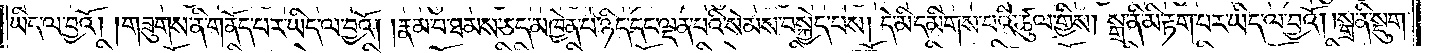ཡིད་ལ་བྱའོ། །གཟུགས་ནི་གནོད་པར་ཡིད་ལ་བྱའོ། །རྣམ་པ་ཐམས་ཅད་མཁྱེན་པ་ཉིད་དང་ལྡན་པའི་སེམས་བསྐྱེད་པས། དེ་མི་དམིགས་པའི་ཚུལ་གྱིས། སྒྲ་ནི་མི་རྟག་པར་ཡིད་ལ་བྱའོ། །སྒྲ་ནི་སྡུག་
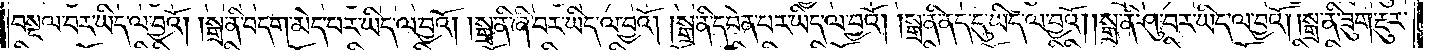བསྔལ་བར་ཡིད་ལ་བྱའོ། །སྒྲ་ནི་བདག་མེད་པར་ཡིད་ལ་བྱའོ། །སྒྲ་ནི་ཞི་བར་ཡིད་ལ་བྱའོ། །སྒྲ་ནི་དབེན་པར་ཡིད་ལ་བྱའོ། །སྒྲ་ནི་ནད་དུ་ཡིད་ལ་བྱའོ། །སྒྲ་ནི་ཤུ་བར་ཡིད་ལ་བྱའོ། །སྒྲ་ནི་ཟུག་རྔུར་
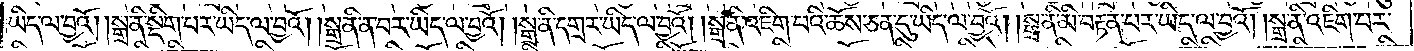ཡིད་ལ་བྱའོ། །སྒྲ་ནི་སྡིག་པར་ཡིད་ལ་བྱའོ། །སྒྲ་ནི་ན་བར་ཡིད་ལ་བྱའོ། །སྒྲ་ནི་དགྲར་ཡིད་ལ་བྱའོ། །སྒྲ་ནི་འཇིག་པའི་ཆོས་ཅན་དུ་ཡིད་ལ་བྱའོ། །སྒྲ་ནི་མི་བརྟན་པར་ཡིད་ལ་བྱའོ། །སྒྲ་ནི་འཇིག་པར་
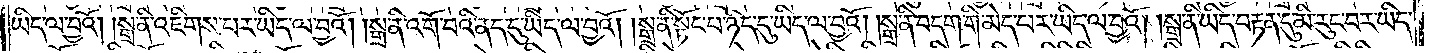ཡིད་ལ་བྱའོ། །སྒྲ་ནི་འཇིགས་པར་ཡིད་ལ་བྱའོ། །སྒྲ་ནི་འགོ་བའི་ནད་དུ་ཡིད་ལ་བྱའོ། །སྒྲ་ནི་སྟོང་པ་ཉིད་དུ་ཡིད་ལ་བྱའོ། །སྒྲ་ནི་བདག་གི་མེད་པར་ཡིད་ལ་བྱའོ། །སྒྲ་ནི་ཡིད་བརྟན་དུ་མི་རུང་བར་ཡིད་
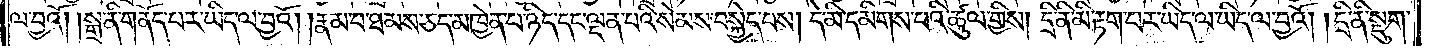ལ་བྱའོ། །སྒྲ་ནི་གནོད་པར་ཡིད་ལ་བྱའོ། །རྣམ་པ་ཐམས་ཅད་མཁྱེན་པ་ཉིད་དང་ལྡན་པའི་སེམས་བསྐྱེད་པས། དེ་མི་དམིགས་པའི་ཚུལ་གྱིས། དྲི་ནི་མི་རྟག་པར་ཡིད་ལ་བྱའོ། །དྲི་ནི་སྡུག་
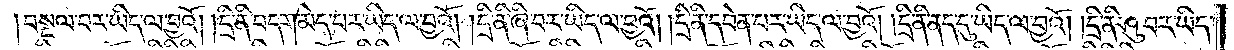བསྔལ་བར་ཡིད་ལ་བྱའོ། །དྲི་ནི་བདག་མེད་པར་ཡིད་ལ་བྱའོ། །དྲི་ནི་ཞི་བར་ཡིད་ལ་བྱའོ། །དྲི་ནི་དབེན་པར་ཡིད་ལ་བྱའོ། །དྲི་ནི་ནད་དུ་ཡིད་ལ་བྱའོ། །དྲི་ནི་ཤུ་བར་ཡིད་
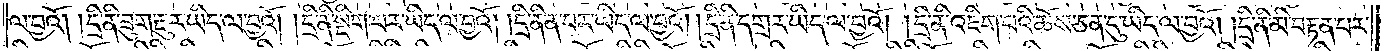ལ་བྱའོ། །དྲི་ནི་ཟུག་རྔུར་ཡིད་ལ་བྱའོ། །དྲི་ནི་སྡིག་པར་ཡིད་ལ་བྱའོ། །དྲི་ནི་ན་བར་ཡིད་ལ་བྱའོ། །དྲི་ནི་དགྲར་ཡིད་ལ་བྱའོ། །དྲི་ནི་འཇིག་པའི་ཆོས་ཅན་དུ་ཡིད་ལ་བྱའོ། །དྲི་ནི་མི་བརྟན་པར་
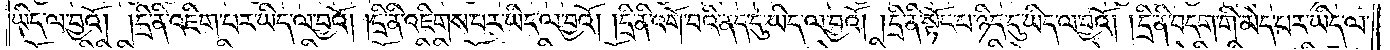ཡིད་ལ་བྱའོ། །དྲི་ནི་འཇིག་པར་ཡིད་ལ་བྱའོ། །དྲི་ནི་འཇིགས་པར་ཡིད་ལ་བྱའོ། །དྲི་ནི་འགོ་བའི་ནད་དུ་ཡིད་ལ་བྱའོ། །དྲི་ནི་སྟོང་པ་ཉིད་དུ་ཡིད་ལ་བྱའོ། །དྲི་ནི་བདག་གི་མེད་པར་ཡིད་ལ་
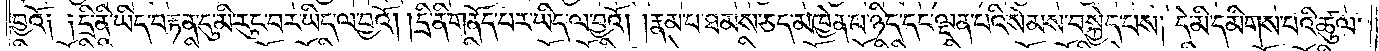བྱའོ༏ ༏དྲི་ནི་ཡིད་བརྟན་དུ་མི་རུང་བར་ཡིད་ལ་བྱའོ། །དྲི་ནི་གནོད་པར་ཡིད་ལ་བྱའོ། །རྣམ་པ་ཐམས་ཅད་མཁྱེན་པ་ཉིད་དང་ལྡན་པའི་སེམས་བསྐྱེད་པས། དེ་མི་དམིགས་པའི་ཚུལ་
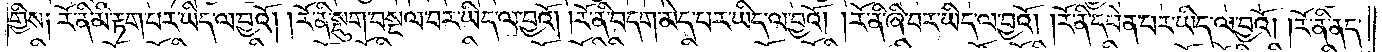གྱིས༏ རོ་ནི་མི་རྟག་པར་ཡིད་ལ་བྱའོ། །རོ་ནི་སྡུག་བསྔལ་བར་ཡིད་ལ་བྱའོ། །རོ་ནི་བདག་མེད་པར་ཡིད་ལ་བྱའོ། །རོ་ནི་ཞི་བར་ཡིད་ལ་བྱའོ། །རོ་ནི་དབེན་པར་ཡིད་ལ་བྱའོ། །རོ་ནི་ནད་
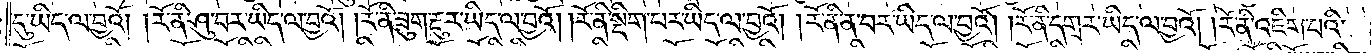དུ་ཡིད་ལ་བྱའོ། །རོ་ནི་ཤུ་བར་ཡིད་ལ་བྱའོ། །རོ་ནི་ཟུག་རྔུར་ཡིད་ལ་བྱའོ། །རོ་ནི་སྡིག་པར་ཡིད་ལ་བྱའོ། །རོ་ནི་ན་བར་ཡིད་ལ་བྱའོ། །རོ་ནི་དགྲར་ཡིད་ལ་བྱའོ། །རོ་ནི་འཇིག་པའི་
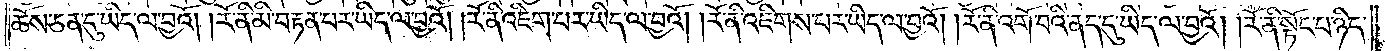ཆོས་ཅན་དུ་ཡིད་ལ་བྱའོ། །རོ་ནི་མི་བརྟན་པར་ཡིད་ལ་བྱའོ། །རོ་ནི་འཇིག་པར་ཡིད་ལ་བྱའོ། །རོ་ནི་འཇིགས་པར་ཡིད་ལ་བྱའོ། །རོ་ནི་འགོ་བའི་ནད་དུ་ཡིད་ལ་བྱའོ། །རོ་ནི་སྟོང་པ་
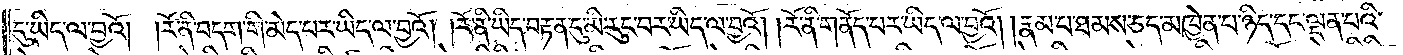ཉིད་དུ་ཡིད་ལ་བྱའོ། །རོ་ནི་བདག་གི་མེད་པར་ཡིད་ལ་བྱའོ། །རོ་ནི་ཡིད་བརྟན་དུ་མི་རུང་བར་ཡིད་ལ་བྱའོ། །རོ་ནི་གནོད་པར་ཡིད་ལ་བྱའོ། །རྣམ་པ་ཐམས་ཅད་མཁྱེན་པ་ཉིད་དང་ལྡན་པའི་
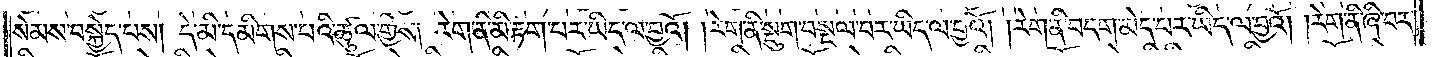སེམས་བསྐྱེད་པས། དེ་མི་དམིགས་པའི་ཚུལ་གྱིས། རེག་ནི་མི་རྟག་པར་ཡིད་ལ་བྱའོ། །རེག་ནི་སྡུག་བསྔལ་བར་ཡིད་ལ་བྱའོ། །རེག་ནི་བདག་མེད་པར་ཡིད་ལ་བྱའོ། །རེག་ནི་ཞི་བར་
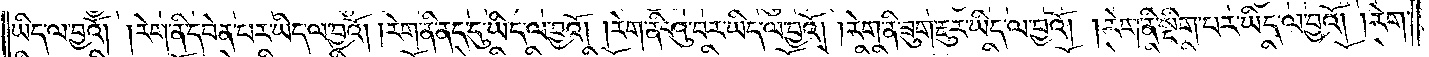ཡིད་ལ་བྱའོ། །རེག་ནི་དབེན་པར་ཡིད་ལ་བྱའོ། །རེག་ནི་ནད་དུ་ཡིད་ལ་བྱའོ། །རེག་ནི་ཤུ་བར་ཡིད་ལ་བྱའོ། །རེག་ནི་ཟུག་རྔུར་ཡིད་ལ་བྱའོ། །རེག་ནི་སྡིག་པར་ཡིད་ལ་བྱའོ། །རེག་
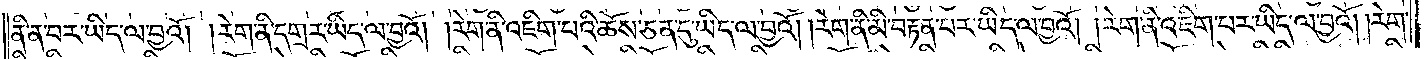ནི་ན་བར་ཡིད་ལ་བྱའོ། །རེག་ནི་དགྲར་ཡིད་ལ་བྱའོ། །རེག་ནི་འཇིག་པའི་ཆོས་ཅན་དུ་ཡིད་ལ་བྱའོ། །རེག་ནི་མི་བརྟན་པར་ཡིད་ལ་བྱའོ། ། རེག་ནི་འཇིག་པར་ཡིད་ལ་བྱའོ། །རེག་
